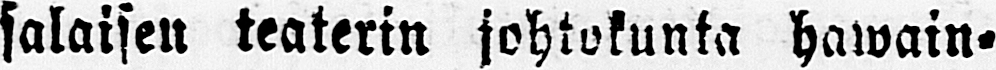salaisen teaterin johtokunta hawain-
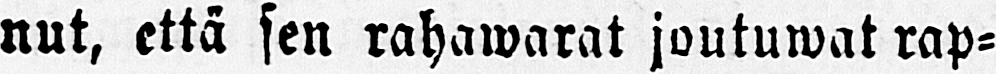nut, että sen rahawarat joutuwat rap-
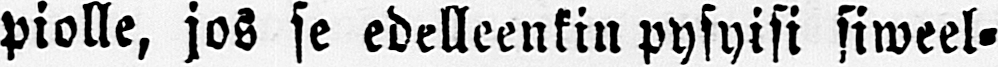piolle, jos se edelleenkin pysyisi siweel-
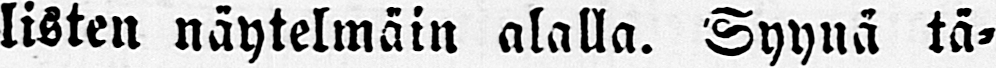listen näytelmäin alalla. Syynä tä-
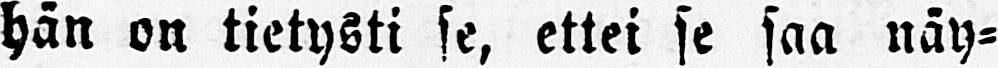hän on tietysti se, ettei se saa näy-
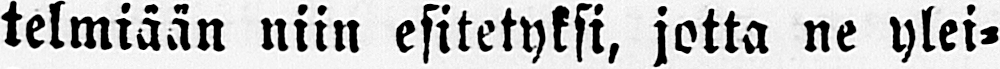telmiään niin esitetyksi, jotta ne ylei-
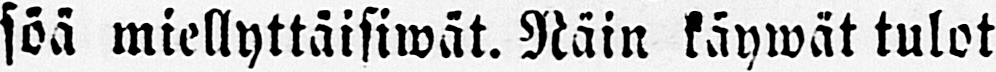söä miellyttäisiwät. Näin käywät tulot
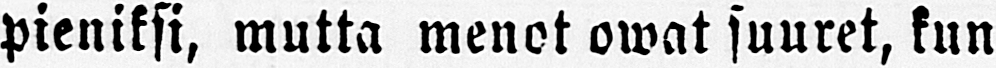pieniksi, mutta menot owat suuret, kun
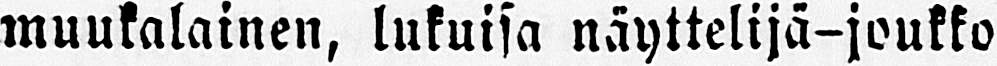muukalainen, lukuisa näyttelijä-joukko
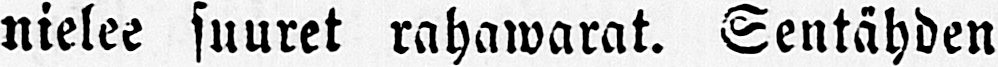nielee suuret rahawarat. Sentähden
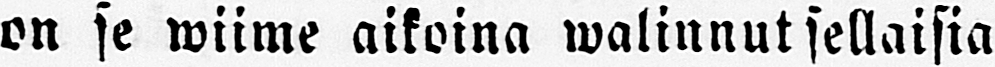on se wiime aikoina walinnut sellaisia
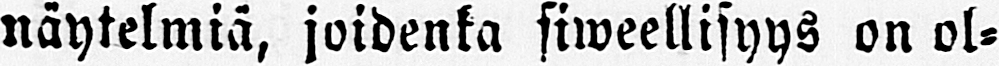näytelmiä, joidenka siweellisyys on ol-
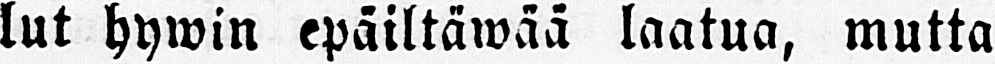lut hywin epäiltäwää laatua, mutta
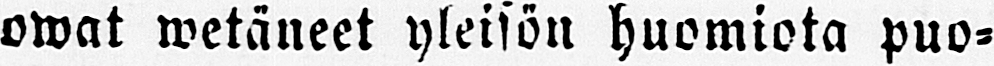owat wetäneet yleisön huomiota puo-
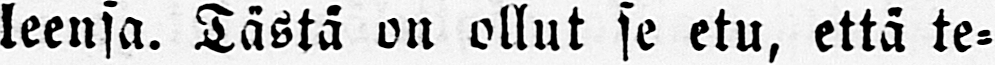leensa. Tästä on ollut se etu, että te-
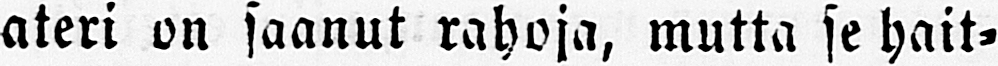ateri on saanut rahoja, mutta se hait-
